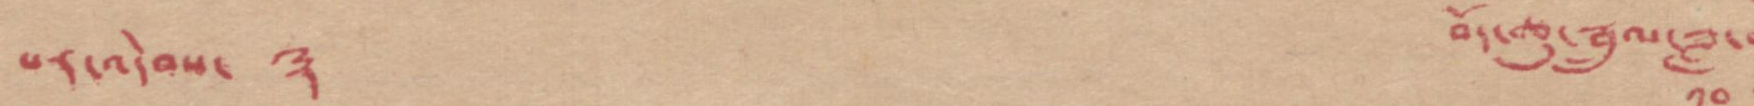པར་འདེབས་ ༣ བོད་ཆུ་སྦྲུལ་ཟླ་
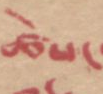ཚེས་
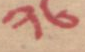༢༦
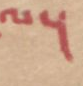ལ།
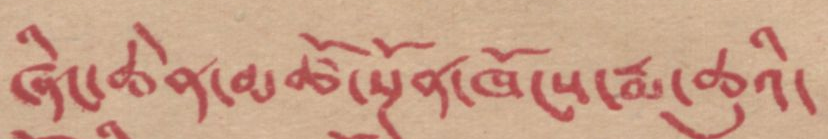ཞིང་ཆེན་མཚོ་སྔོན་ཁོངས་རྨ་ཆུའི་
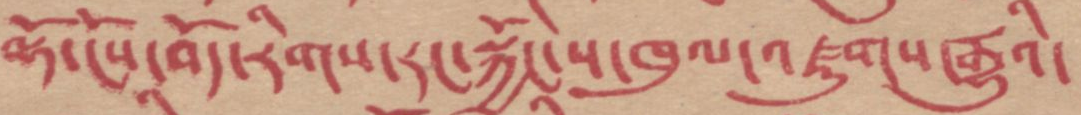ལྷོ་ངོས་བོད་རིགས་རང་སྐྱོང་ས་ཁུལ་འཛུགས་རྒྱུའི་
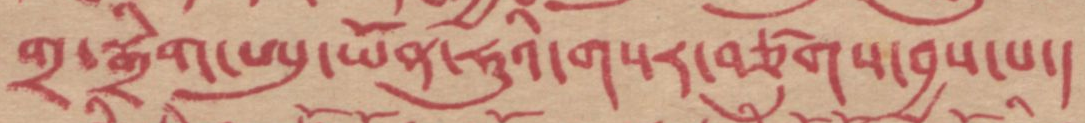གྲ་སྒྲིག་ཨུ་ཡོན་ཧུའི་གསར་བཙུགས་བྱས་པ།
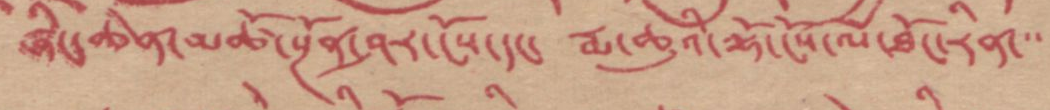ཞིང་ཆེན་མཚོ་སྔོན་ཤར་ངོས་དང་ རྨ་ཆུའི་ལྷོ་ངོས་ལ་ཐོང་རིན་་་
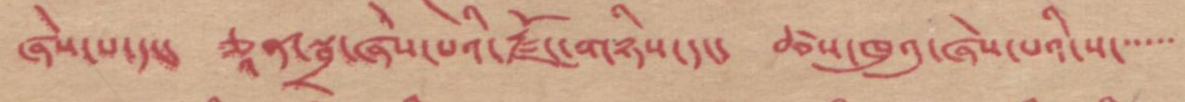ཞེས་པ་དང་ ཅཱན་སྦྲ་ཞེས་པའི་རྫོང་གཉིས་དང་ ཚས་ཁུའུ་ཞེས་པའི་ས་་་་་་
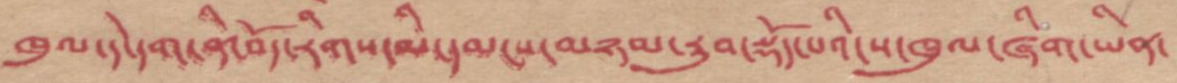ཁུལ་དེ་དག་ནི་བོད་རིགས་མི་དམངས་མཉམ་རུབ་སྡོད་པའི་ས་ཁུལ་ཞིག་ཡིན་
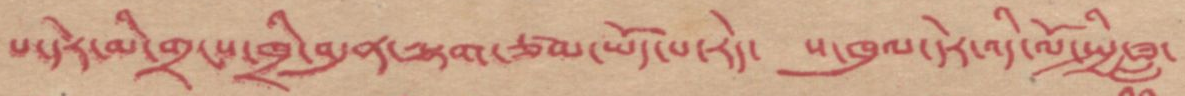པ་དེར་མི་གྲངས་ཁྲི་བདུན་ལྷག་ཙམ་ཡོད་པ་རེད་ ས་ཁུལ་དེར་འདི་ལོ་སྤྱི་ཟླ་
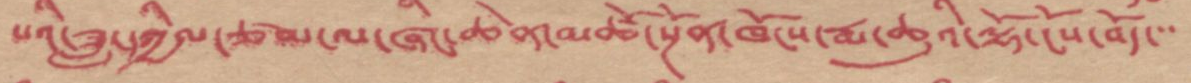པའི་ཟླ་དཀྱིལ་ཙམ་ལ་ཞིང་ཆེན་མཚོ་སྔོན་ཁོངས་རྨ་ཆུའི་ལྷོ་ངོས་བོད་་་
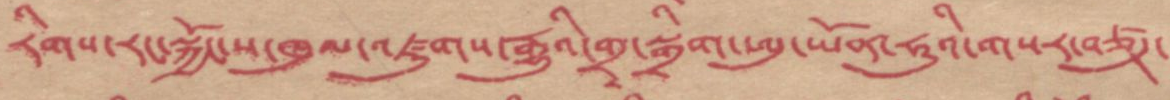རིགས་རང་སྐྱོང་ས་ཁུལ་འཛུགས་རྒྱུའི་གྲྭ་སྒྲིག་ཨུ་ཡོན་ཧུའི་གསར་བཙུཌ་
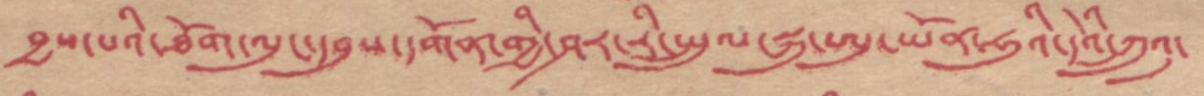བྱས་པའི་ཐོག་ལུངདབུས་དགོན་གྱི་ཤར་རི་སྤྲུལ་སྐུ་ཨུ་ཡོན་ཧུའི་དེའི་ཀྲུའུ་
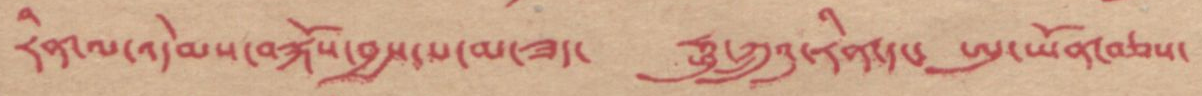རིན་ལ་འདེམས་བསྐོས་བྱས་པ་མ་ཟད་ ཧྥུ་ཀྲུའུ་རིན་དང་ ཨུ་ཡོན་བཅས་
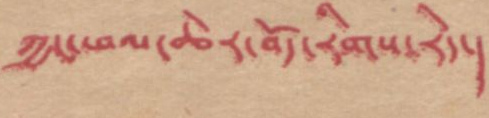ཀྱང་ཕལ་ཆེར་བོད་རིགས་རེད།
